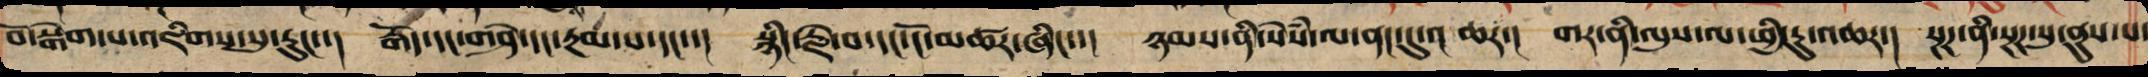བོ་སྒེག་པ་འཇིགས་སུ་རུང་་།  རྒོད་དང་གཤེ་དང་རྔམ་པ་དང་་།  སྙིང་རྗེ་བ་དང་ངོ་མཚར་ཞི།་།  ཉམས་ནི་སེཾས་ལ་ནང་དུ་འཆར་།  གར་ནི་ལུས་ལ་ཕྱི་རུ་འཆར་།  སྔཌ་ནི་སྔཌ་སུ་ནུས་པ་
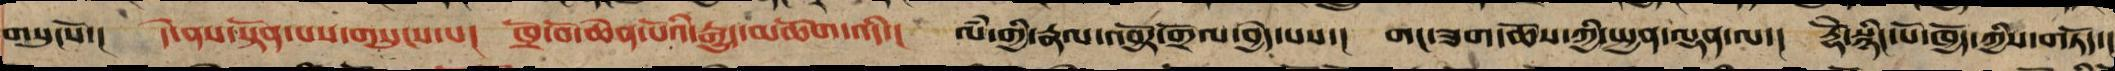གསུངསོ་།  དེ་ནས་སྟོན་པས་གསུངས་པ།  ཁྲོ་བོ་ཆེན་པོའི་རྒྱུད་མཆོག་འདི་།  ལཾ་གྱི་རྣལ་འབྱོར་གྲོལ་བྱེད་པས་།  གང་ཟག་ཆོས་ཀྱི་སྤྱན་ལྡན་ལ་།  རྡོཻ་སྙིང་པོ་ཁྱོད་ཀྱིས་གཏོད་།
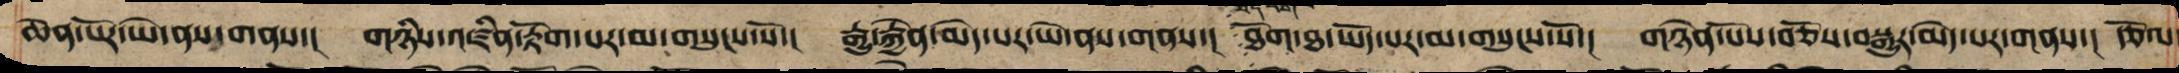ཆེན་པོར་ཡེ་ནས་གནས་། གཉིས་འཛིན་རྟོག་པར་མ་གསུངས་སོ་། རྒྱུ་རྐྱེན་མེད་པར་ཡེ་ནས་གནས་། ཐོག་ཐ་ཡོད་པར་མ་གསུངས་སོ་། གཉེན་པོས་བཅོས་བསྒྱུར་མེད་པར་གནས་། རྩོལ་
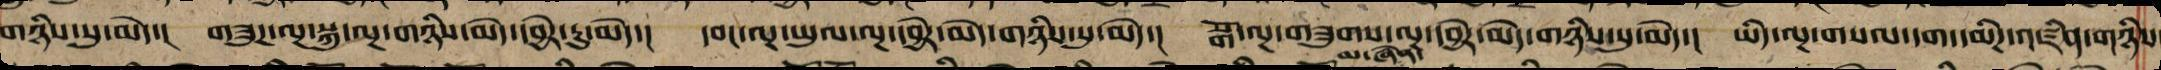གཉིས་སུ་མེད་། གཟུཌ་ལྔ་སྐུ་ལྔ་གཉིས་མེད་དབྱེར་རུ་མེད་། དབང་ལྔ་ཡུལ་ལྔ་དབྱེར་མེད་གཉིས་སུ་མེད་། སྒོ་ལྔ་གཟུགས་ལྔ་དབྱེར་མེད་གཉིས་སུ་མེད་། ཡིད་ལྔ་གསལ་དབང་དམིཌ་འཛིན་གཉིས
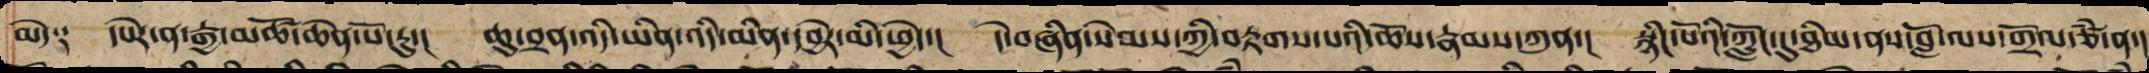མེད༑  དཔེར་ན་རྒྱ་མཚོ་ཆེན་པོ་རུ་།  ཆུ་བྲན་འདི་ཡིན་འདི་མིན་དབྱེར་མི་ཕྱེད་།  དེ་བཞིན་སེམས་ཀྱི་བརྟགས་པའི་ཆོས་རྣམས་ཀུན་།  སྙིང་པོའི་ཀློང་དུ་ཐིམ་ནས་བློ་ལས་གྲོལ་ཙཾ་ན་།
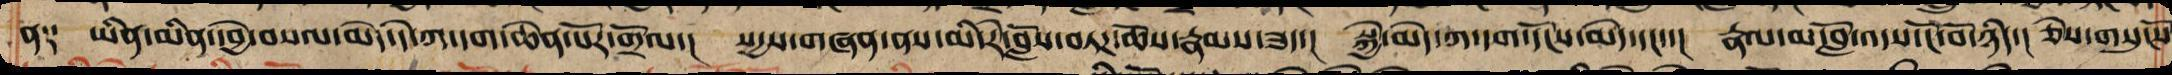ན༑  ཡིན་མིན་དབྱེ་བསལ་མེད་དེ་ཀ་དག་ཆེན་པོར་གྲོལ་།  སདྱས་གཞན་ནས་མི་རེ་བློས་བཏཌ་ཆོས་རྣམས་ཟད་།  སྐྱེ་མེད་ཀ་དག་དངོས་མེད་དང་་།  རྣལ་མ་བློ་འདས་ངོ་བོ་ཉིད་།  ཅེས་གསུངསོ
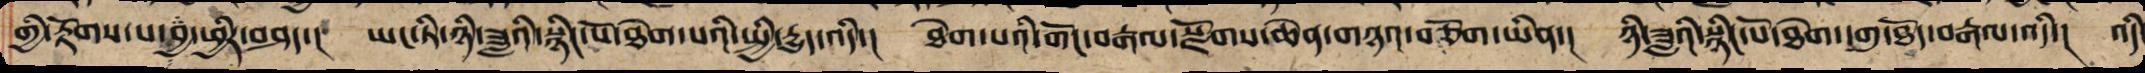གྱི་རྟོགས་པ་བྱ་ཕྱིར་བཤད་།  ཡང་ཏི་ཉི་ཟླའི་སྙིང་པོ་ཐེག་པའི་སྤྱི་རྒྱུད་འདི་།  ཐེག་པའི་གོང་བརྒལ་སྫོགས་ཆེན་གཉའ་བཅོག་ཡིན་།  ཉི་ཟླའི་སྙིང་པོ་ཐེག་དགུ་ཐོད་བརྒལ་འདི་།  འདི
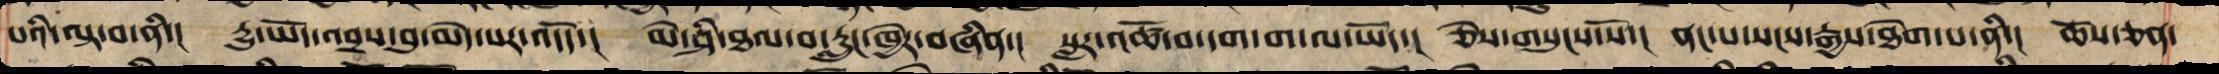པའི་ལྟ་བ་ནི་།  དྱུ་ཡོད་འབྲས་བུ་མེད་པར་འདོད་།  མི་ཤི་ཐལ་བ་རླུང་ཁྱེར་བཞིན་།  སླར་འཚོ་བ་དག་ག་ལ་ཡོད།  ཅེས་གསུངས་སོ།  ནང་པ་སངས་རྒྱས་ཐེག་པ་ནི་།  ཆོས་ཅན་
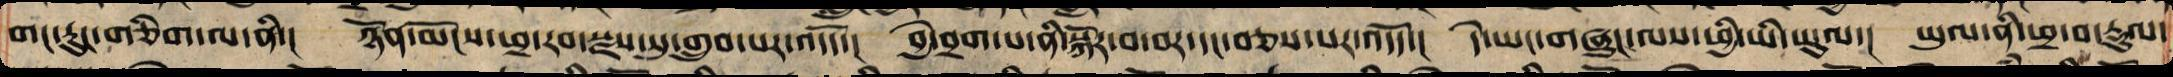གང་རུང་གཅིག་ལ་ནི་།  ཉོན་མོངས་ཕྲ་རབ་སྫས་སུ་གྲུབ་པར་འདོད་།  བྱེ་བྲག་པ་ནི་སྐོར་བ་བར་དང་བཅས་པར་འདོད་།  དེ་ཡང་གཞུང་ལས་ཕྱི་ཡི་ཡུལ་།  ཡུལ་ནི་ཕྲ་བ་རྡུལ་
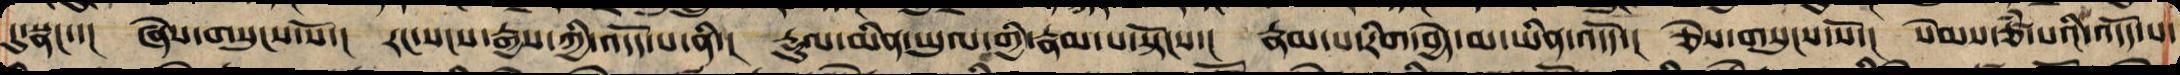དུ་སྣང་་།  ཞེས་གསུངས་སོ།  རང་སངས་རྒྱས་ཀྱི་འདོད་པ་ནི་།  རྡུལ་མིན་ཡུལ་གྱི་རྣམ་པ་སྟོངས་།  རྣམ་པ་རིག་བྱེད་མ་ཡིན་འདོད་།  ཅེས་གསུངས་སོ་།  སེམས་ཙཾ་པའི་འདོད་པ་
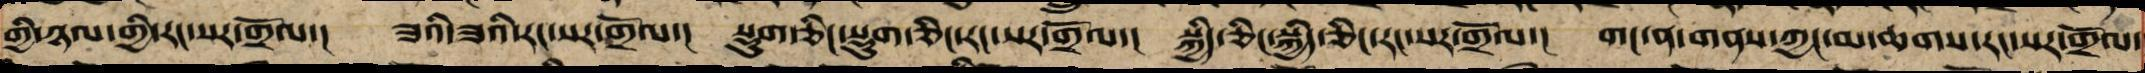གྱི་ཉལ་གྱིན་རང་སར་གྲོལ་།  ཟའི་ཟའི་རང་སར་གྲོལ།  སྡུག་ཅིང་སྡུག་ཅིང་རང་སར་གྲོལ་།  སྐྱིད་ཅིང་སྐྱིད་ཅིང་རང་སར་གྲོལ་།  གང་ན་གནས་ཀྱང་མ་ཆགས་རང་སར་གྲོལ་
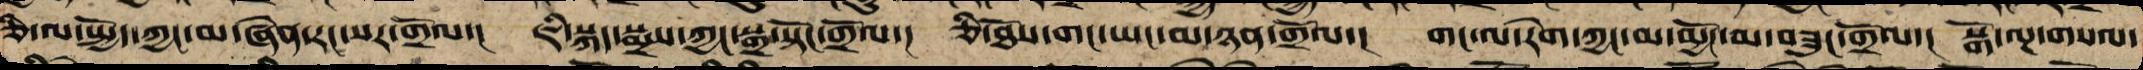ཅི་ལ་སྤྱོད་ཀྱང་མ་ཞེན་རང་སར་གྲོལ་།  ཇི་སྐད་སྨྲས་ཀྱང་སྒྲ་སྟོང་གྲོལ་།  ཅི་ཐོས་གང་ཡང་མ་ཉན་གྲོལ་།  གང་ལ་རེག་ཀྱང་མ་མྱོང་མ་བཟུང་གྲོལ་།  སྒོ་ལྔ་གསལ་
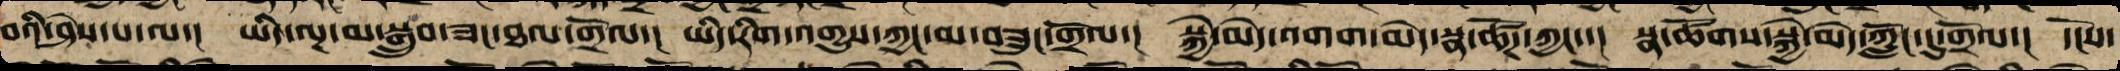བའི་ཤེས་པ་ལ་།  ཡིད་ལྔ་མ་སྒྲུབ་ཟང་ཐལ་གྲོལ་།  ཡིད་རིག་འགྱུས་ཀྱང་མ་བཟུང་གྲོལ་།  སྐྱེ་མེད་འགག་མེད་སྣ་ཚོཌ་ཀྱང་་།  སྣ་ཚོགས་སྐྱེ་མེད་ཀློང་དུ་གྲོལ་།  དངོས་
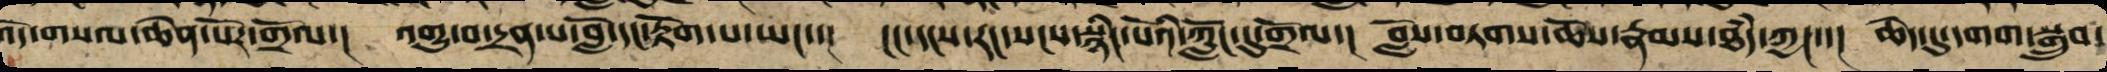འོད་གསལ་ཆེན་པོར་གྲོལ་།  འགྱུ་བ་དྲན་པ་བློ་དང་རྟོག་པ་ཡང་་།  ངང་དངས་རང་སངས་སྙིང་པོའི་ཀློང་དུ་གྲོལ་།  བློས་བཏགས་ཆོས་རྣམས་ཐཾད་ཀྱང་་།  ཆེད་དུ་དགག་སྒྲུབ་
